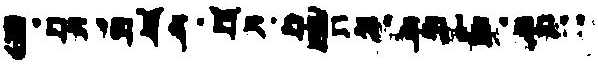སྐུ་བར་མཐོན་པོར་བསྒྲེངས་ནས་ཟ་དང་་
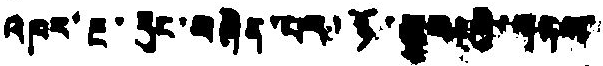འཁར་རྔ་རྡུང་བཞིན་པར་ཉོ་  གྱི་གཞས་
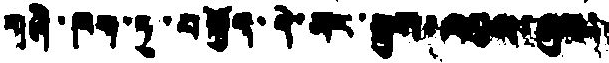གཞི་ཁག་ཏུ་བསྐྱོད་དེ་མར་སྤུས་འབུལ་ཞུས་
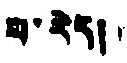བ་རེད།
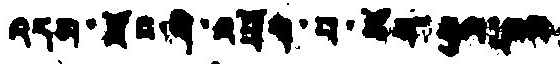འདམ་རྫོང་གི་འབྲོག་པ་ཚོས་རྒྱལ་ཁབ་
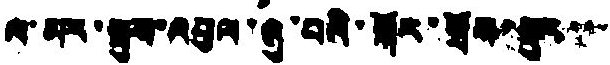ལ་མར་སྤུས་འབུལ་ཞུ་བའི་སྐོར་གྲོས་སྡུར་་་
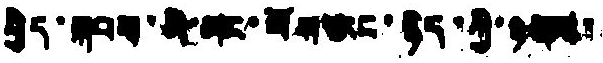བྱེད་སྐབས་མི་མང་པོས་རང་ཉིད་ཀྱི་ཉམས་
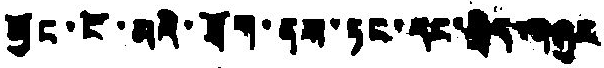མྱོང་ངོ་མའི་ཐོག་ནས་ཏང་དང་སྲིད་གཞུང
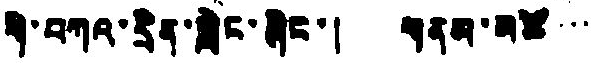གི་བཀའ་དྲིན་གླེང་ཞིང་། གནམ་མཚོ་་་
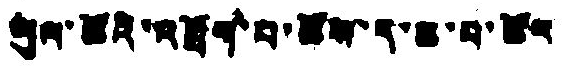ཡུལ་ཚོའི་འབྲོག་པ་ཚོས་ད་ཆ་བ་ཚོར
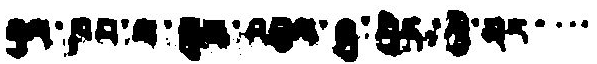རྒྱལ་ཁབ་ལ་ཆུས་འབུལ་ཞུ་ཕྱིར་ཀྱི་མར་་་་
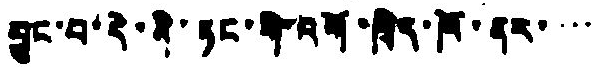བྱུང་བ་དེ་ནི་ཏང་གི་འགོ་ཁྲིད་ཁོ་ནར་་་་
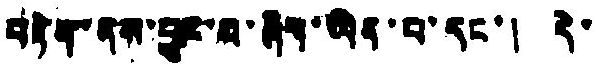བརྟེན་ནས་བྱུང་བ་ཞིག་ཡིན་པ་དང་། དེ་
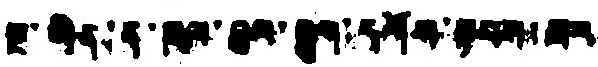ལྔ་ཡིན་ན་ཁལ་བུལ་རྒྱག་དགོས་སྟབས་ཟར་
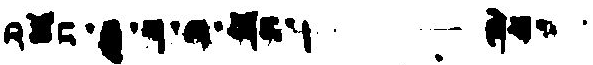འཚོང་རྒྱུ་ག་ལ་ཡོང་། ཞེས་་་
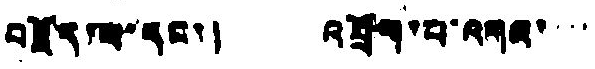བརྗོད་པ་དང་། འབྲོག་པ་འགའ་་་་
